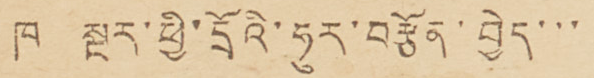ཁ སྔར་ཕྱི་དྲོའི་ཧུར་བརྩོན་བྱེད་་་
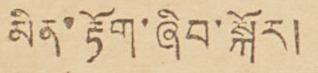མིན་རྟོག་ཞིབ་སྐོར།
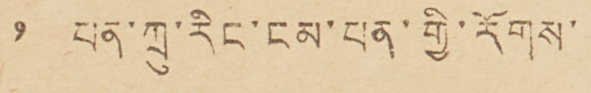༡ པན་ཀྲུ་རིང་ངམ་པན་གྱི་རོགས་
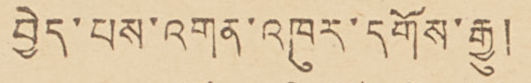བྱེད་པས་འགན་འཁུར་དགོས་རྒྱུ།
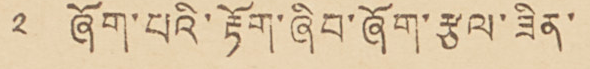༢ ཞོག་པའི་རྟོག་ཞིབ་ཞོག་རྩལ་ཟིན་
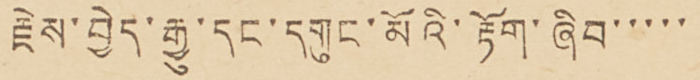རྗེས་བྱེད་རྒྱུ་དང་དགུང་མོའི་རྟོག་ཞིབ་་་་་
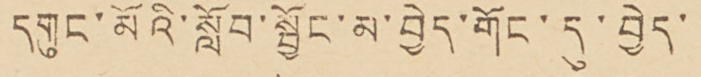དགུང་མོའི་སློབ་སྦྱོང་མ་བྱེད་གོང་དུ་བྱེད་
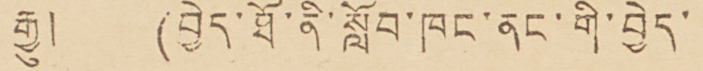རྒྱུ། (བྱེད་ཐོ་ནི་སློབ་ཁང་ནང་གི་བྱེད་
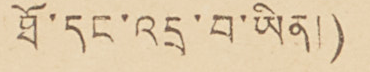ཐོ་དང་འདྲ་བ་ཡིན།)
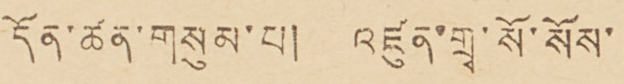དོན་ཚན་གསུམ་པ། འཛུན་གྲྭ་སོ་སོས་
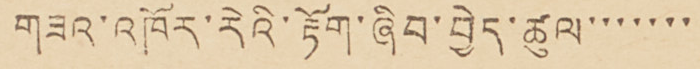གཟའ་འཁོར་རེའི་རྟོག་ཞིབ་བྱེད་ཚུལ་་་་་་་
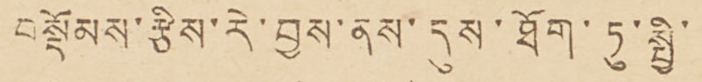བསྡོམས་རྩིས་རེ་བྱས་ནས་དུས་ཐོག་ཏུ་སྤྱི་
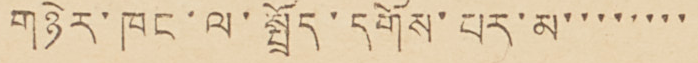གཉེར་ཁང་ལ་སྤྲོད་དགོས་པར་མ་་་་་་་་
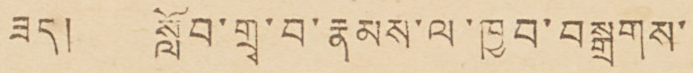ཟད། སློབ་གྲྭ་བ་རྣམས་ལ་ཁྱབ་བསྒྲགས་
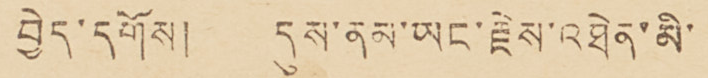བྱེད་དགོས། དུས་ནམ་ཡང་རྗེས་འཐེན་མི་
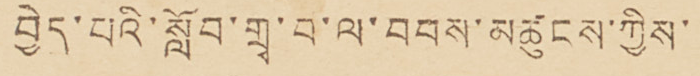བྱེད་པའི་སློབ་གྲྭ་བ་ལ་བབས་མཚུངས་ཀྱིས་
